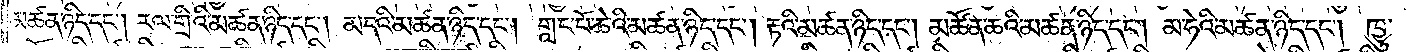མཚན་ཉིད་དང༌། རལ་གྲིའི་མཚན་ཉིད་དང༌། མདའི་མཚན་ཉིད་དང༌། གླང་པོ་ཆེའི་མཚན་ཉིད་དང༌། རྟའི་མཚན་ཉིད་དང༌། མཚོན་ཆའི་མཚན་ཉིད་དང༌། མ་ཧེའི་མཚན་ཉིད་དང༌། ཁྱུ་
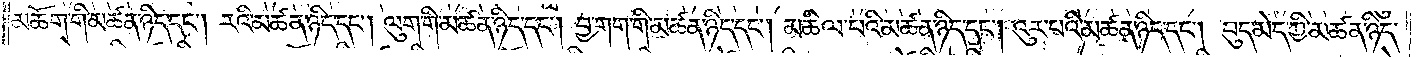མཆོག་གི་མཚན་ཉིད་དང༌། རའི་མཚན་ཉིད་དང༌། ལུག་གི་མཚན་ཉིད་དང༌། བྱ་གག་གི་མཚན་ཉིད་དང༌། མཆིལ་བའི་མཚན་ཉིད་དང༌། འུར་བའི་མཚན་ཉིད་དང༌། བུད་མེད་ཀྱི་མཚན་ཉིད་
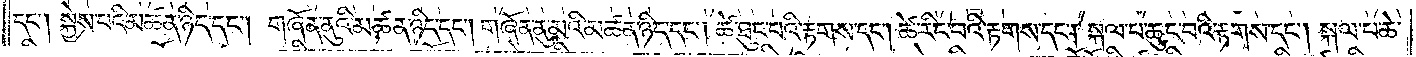དང༌། སྐྱེས་པའི་མཚན་ཉིད་དང༌། གཞོན་ནུའི་མཚན་ཉིད་དང༌། གཞོན་ནུ་མའི་མཚན་ཉིད་དང༌། ཚེ་ཐུང་བའི་རྟགས་དང༌། ཚེ་རིང་བའི་རྟགས་པ་དང༌། སྐལ་པ་ཆུང་བའི་རྟགས་དང༌། སྐལ་པ་ཆེ་
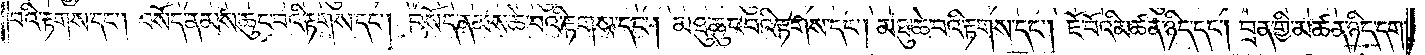བའི་རྟགས་དང༌། བསོད་ནམས་ཆུང་བའི་རྟགས་དང༌། བསོད་ནམས་ཆེ་བའི་རྟགས་དང༌། མཐུ་ཆུང་བའི་རྟགས་དང༌། མཐུ་ཆེ་བའི་རྟགས་དང༌། ཇོ་བོའི་མཚན་ཉིད་དང༌། བྲན་གྱི་མཚན་ཉིད་དག་
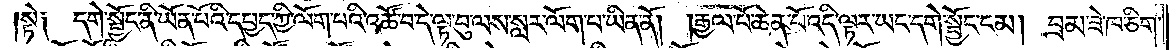སྟེ། དགེ་སྦྱོང་ནི་ཡོན་པོའི་དཔྱད་ཀྱི་ལོག་པའི་འཚོ་བ་དེ་ལྟ་བུ་ལས་སླར་ལོག་པ་ཡིན་ནོ།   །རྒྱལ་པོ་ཆེན་པོ་འདི་ལྟར་ཡང་དགེ་སྦྱོང་ངམ། བྲམ་ཟེ་ཁ་ཅིག་
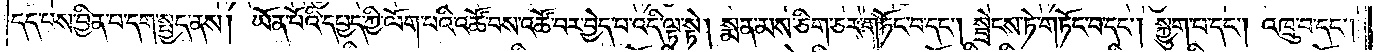དད་པས་བྱིན་པ་དག་སྤྱད་ནས། ཡོན་པོའི་དཔྱད་ཀྱི་ལོག་པའི་འཚོ་བས་འཚོ་བར་བྱེད་པ་འདི་ལྟ་སྟེ། སྨན་མས་ཅིག་ཅར་གཏོང་བ་དང༌། སྦྲེངས་ཏེ་གཏོང་བ་དང༌། སྐྱུག་པ་དང༌། འཁྲུ་བ་དང༌།
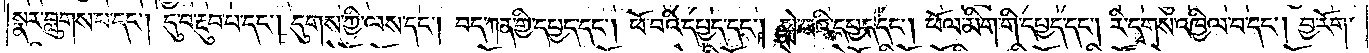སྣར་བླུགས་པ་དང༌། དུ་བ་རྔུབ་པ་དང༌། དུགས་ཀྱི་ལས་དང༌། བད་ཀན་གྱི་དཔྱད་དང༌། ཕོ་བའི་དཔྱད་དང༌། སྨེ་བའི་དཔྱད་དང༌། ཕོལ་མིག་གི་དཔྱད་དང༌། རི་དྭགས་འཁྱིལ་བ་དང༌། བྱ་རོག་
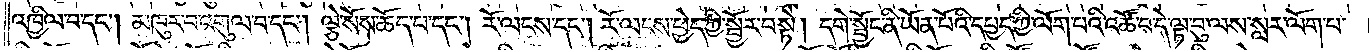འཁྱིལ་བ་དང༌། མཁུར་བ་འགུལ་བ་དང༌། ལྕེ་སོས་ཆོད་པ་དང༌། རོ་ལངས་དང༌། རོ་ལངས་ཕྱེད་ཀྱི་སྦྱོར་བ་སྟེ། དགེ་སྦྱོང་ནི་ཡོན་པོའི་དཔྱད་ཀྱི་ལོག་པའི་འཚོ་བ་དེ་ལྟ་བུ་ལས་སླར་ལོག་པ་
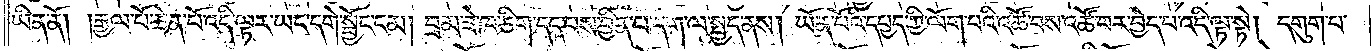ཡིན་ནོ། །རྒྱལ་པོ་ཆེན་པོ་འདི་ལྟར་ཡང་དགེ་སྦྱོང་ངམ། བྲམ་ཟེ་ཁ་ཅིག་དད་པས་བྱིན་པ་དག་ལ་སྤྱད་ནས། ཡོན་པོའི་དཔྱད་ཀྱི་ལོག་པའི་འཚོ་བས་འཚོ་བར་བྱེད་པ་འདི་ལྟ་སྟེ། དགུག་པ་
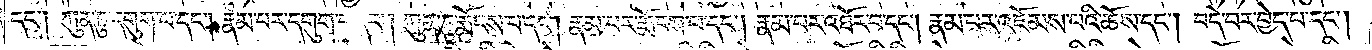དང༌། ཀུན་ཏུ་དགུག་པ་དང༌། རྣམ་པར་དགུག་པ་དང༌། ཀུན་ཏུ་རྨོངས་པ་དང༌། རྣམ་པར་རྨོངས་པ་དང༌། རྣམ་པར་འཐོར་བ་དང༌། རྣམ་པར་འཇོམས་པའི་ཆོས་དང༌། བདེ་བར་བྱེད་པ་དང༌།
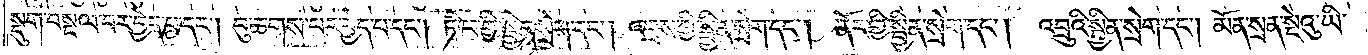སྡུག་བསྔལ་བར་བྱེད་པ་དང༌། བུ་ཆགས་པར་བྱེད་པ་དང༌། ཏིལ་གྱི་སྦྱིན་སྲེག་དང༌། འབྲས་ཀྱི་སྦྱིན་སྲེག་དང༌། ནོར་གྱི་སྦྱིན་སྲེག་དང༌།   འབྲུའི་སྦྱིན་སྲེག་དང༌། མོན་སྲན་སྡེའུ་ཡི་
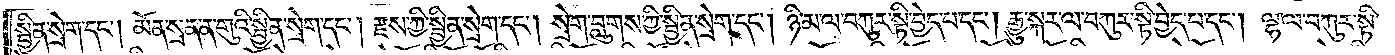སྦྱིན་སྲེག་དང༌། མོན་སྲན་ན་གུའི་སྦྱིན་སྲེག་དང༌། རྫས་ཀྱི་སྦྱིན་སྲེག་དང༌། སྲེག་བླུགས་ཀྱི་སྦྱིན་སྲེག་དང༌། ཉི་མ་ལ་བཀུར་སྟི་བྱེད་པ་དང༌། རྒྱུ་སྐར་ལ་བཀུར་སྟི་བྱེད་པ་དང༌། ལྷ་ལ་བཀུར་སྟི་
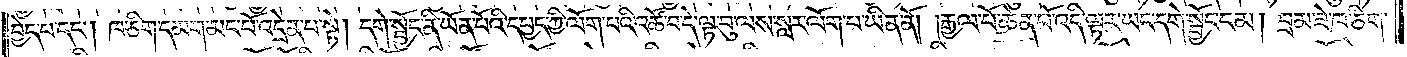བྱེད་པ་དང༌། ཁ་ཅིག་དམག་མང་པོ་འདྲེན་པ་སྟེ། དགེ་སྦྱོང་ནི་ཡོན་པོའི་དཔྱད་ཀྱི་ལོག་པའི་འཚོ་བ་དེ་ལྟ་བུ་ལས་སླར་ལོག་པ་ཡིན་ནོ། །རྒྱལ་པོ་ཆེན་པོ་འདི་ལྟར་ཡང་དགེ་སྦྱོང་ངམ། བྲམ་ཟེ་ཁ་ཅིག་
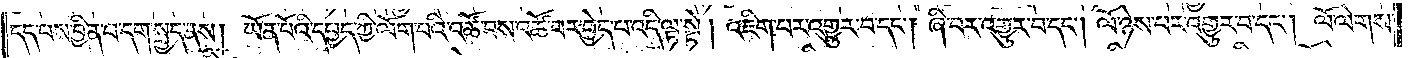དད་པས་བྱིན་པ་དག་སྤྱད་ནས། ཡོན་པོའི་དཔྱད་ཀྱི་ལོག་པའི་འཚོ་བས་འཚོ་བར་བྱེད་པ་འདི་ལྟ་སྟེ། འཇིག་པར་འགྱུར་བ་དང༌། ཞི་བར་འགྱུར་བ་དང༌། ལོ་ཉེས་པར་འགྱུར་བ་དང༌། ལོ་ལེགས་
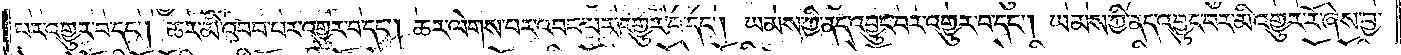པར་འགྱུར་བ་དང༌། ཆར་མི་འབབ་པར་འགྱུར་བ་དང༌། ཆར་ལེགས་པར་འབབ་པར་འགྱུར་བ་དང༌། ཡམས་ཀྱི་ནད་འབྱུང་བར་འགྱུར་བ་དང༌། ཡམས་ཀྱི་ནད་འབྱུང་བར་མི་འགྱུར་རོ་ཞེས་བྱ་
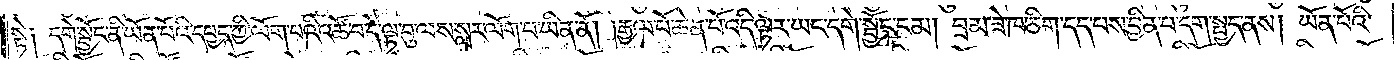སྟེ། དགེ་སྦྱོང་ནི་ཡོན་པོའི་དཔྱད་ཀྱི་ལོག་པའི་འཚོ་བ་དེ་ལྟ་བུ་ལས་སླར་ལོག་པ་ཡིན་ནོ། །རྒྱལ་པོ་ཆེན་པོ་འདི་ལྟར་ཡང་དགེ་སྦྱོང་ངམ། བྲམ་ཟེ་ཁ་ཅིག་དད་པས་བྱིན་པ་དག་སྤྱད་ནས། ཡོན་པོའི་
